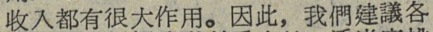收入都有很大作用。因此，我們建議各
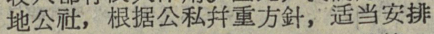地公社，根据公私并重方針，适当安排
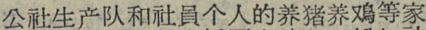公社生产队和社員个人的养猪养鳮等家
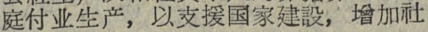庭付业生产，以支援国家建設，增加社
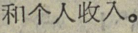和个人收入。
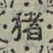猪
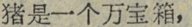猪是一个万宝箱，
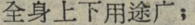全身上下用途广；
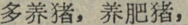多养猪，养肥猪，
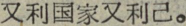又利国家又利已。
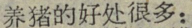养猪的好处很多：
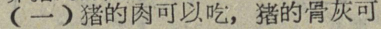（一）猪的肉可以吃，猪的骨灰可
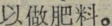以做肥料。
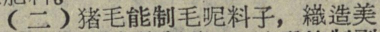（二）猪毛能制毛呢料子，織造美
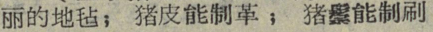丽的地毡；猪皮能制革；猪鬃能制刷
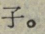子。
